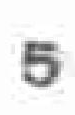5
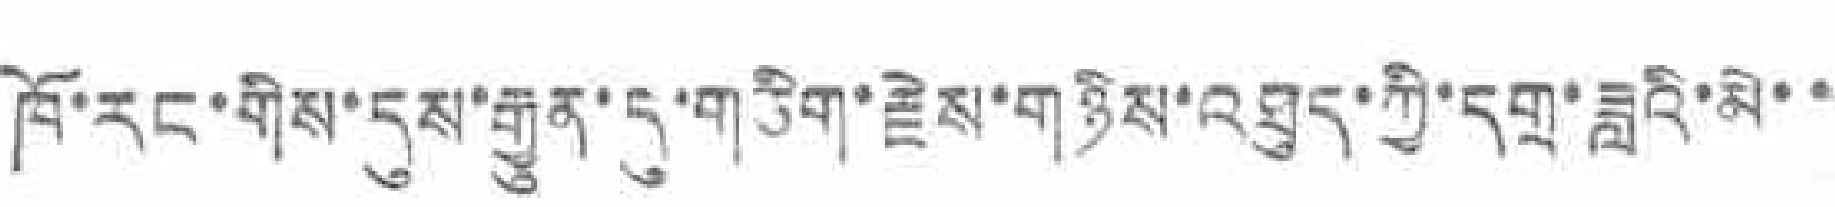ཁོ་རང་གིས་དུས་རྒྱུན་དུ་གཅིག་རྗེས་གཉིས་འཐུད་ཀྱི་དགྲ་ཟླའི་མེ་་
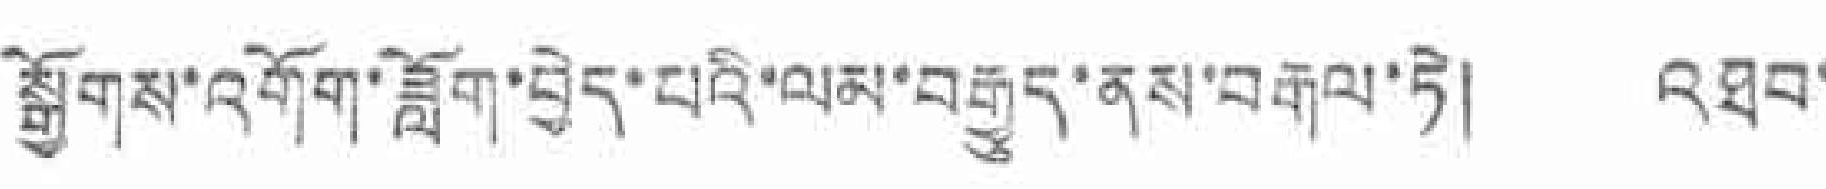སྒྱོགས་འགོག་ཟློག་བྱེད་པའི་ལམ་བརྒྱུད་ནས་བརྒལ་ཏེ། འཐབ་
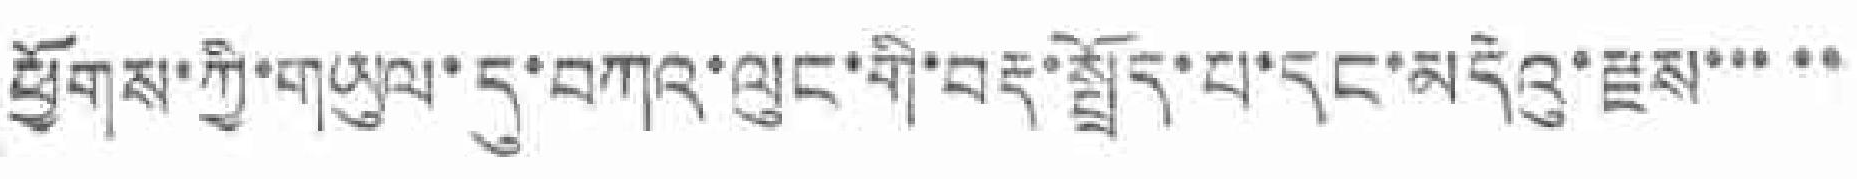ཕྱོགས་ཀྱི་གཡུལ་དུ་བཀའ་ལུང་གི་བརྡ་སྤྱོད་པ་དང་མདེའུ་རྫས་་་་་
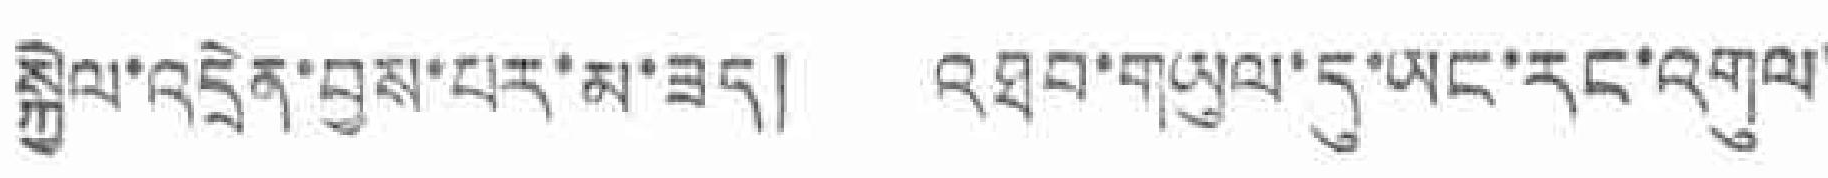སྐྱེལ་འདྲེན་བྱས་པར་མ་ཟད། འཐབ་གཡུལ་དུ་ཡང་རང་འགུལ་
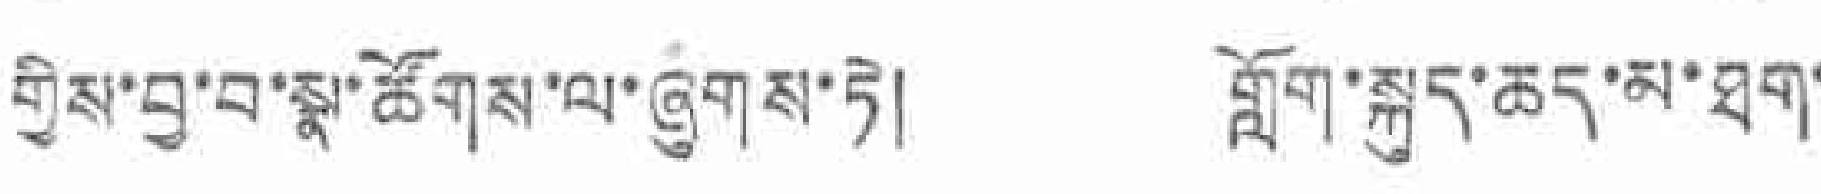གྱིས་བྱ་བ་སྣ་ཚོགས་ལ་ཞུགས་ཏེ། གློག་སྐྱད་ཆད་མ་ཐག་
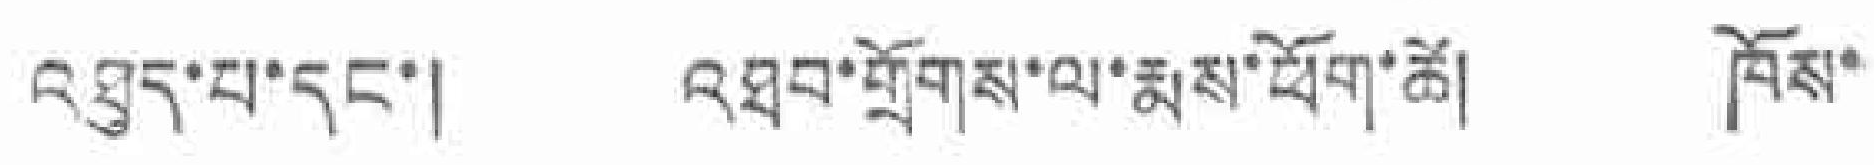འཐུད་པ་དང་། འཐབ་གྲོགས་ལ་རྨས་ཕོག་ཚེ། ཁོས་
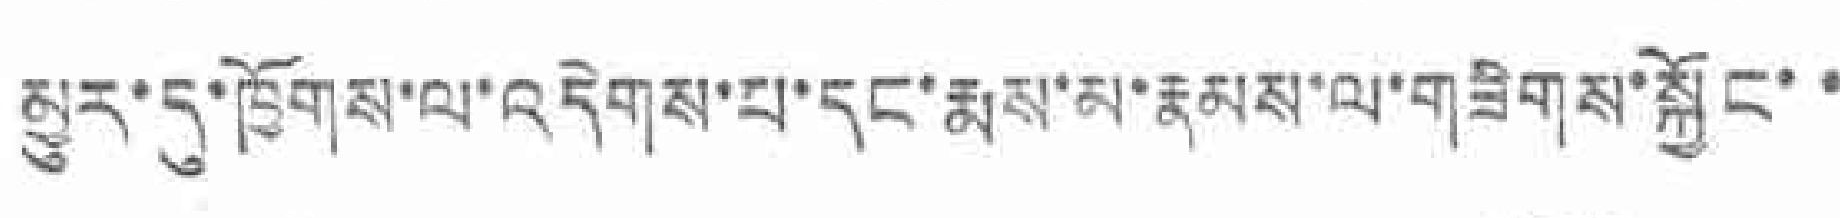མྱུར་དུ་ཁྱོགས་ལ་འདེགས་པ་དང་རྨས་མ་རྣམས་ལ་གཟིགས་སྐྱོང་་
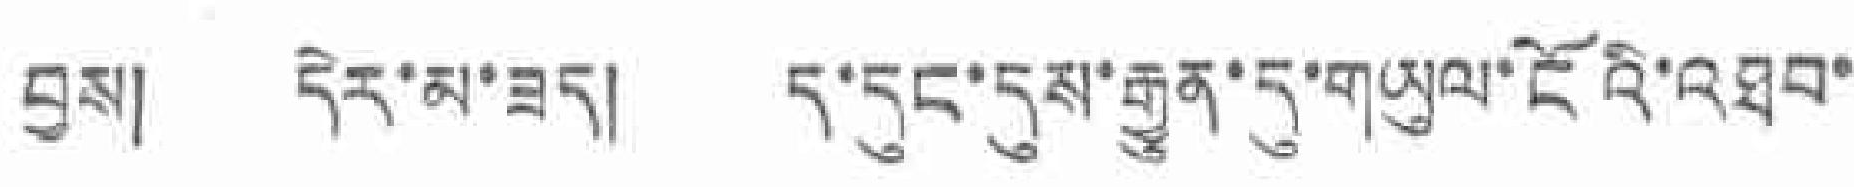བྱས། དེར་མ་ཟད། ད་དུང་དུས་རྒྱུན་དུ་གཡུལ་ངོའི་འཐབ་
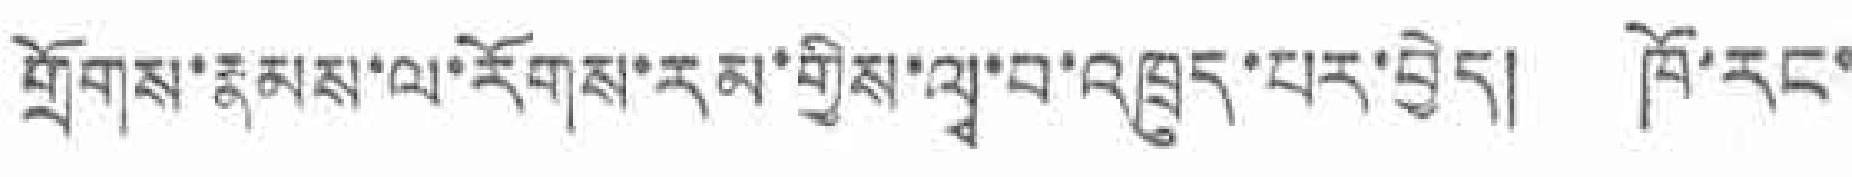གྲོགས་རྣམས་ལ་རོགས་རམ་གྱིས་ལྭ་བ་འཁྲུད་པར་བྱེད། ཁོ་རང་
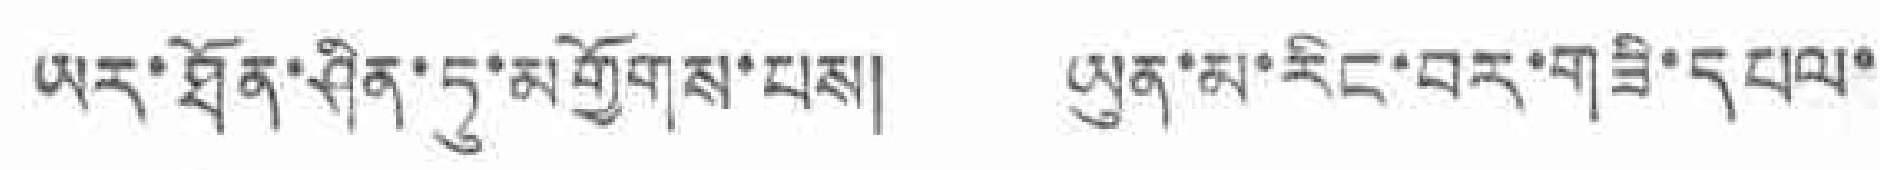ཡད་ཐོན་ཤིན་ཏུ་མགྱོགས་པས། ཡུན་མ་རིང་བར་གཟི་དཔལ་
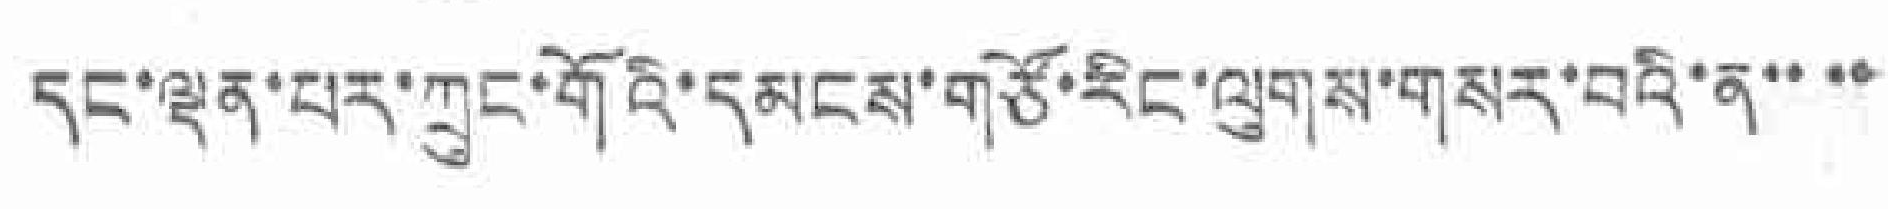དང་ལྡན་པར་ཀྲུང་གོའི་དམངས་གཙོ་རིང་ལུགས་གསར་བའི་ན་་་་
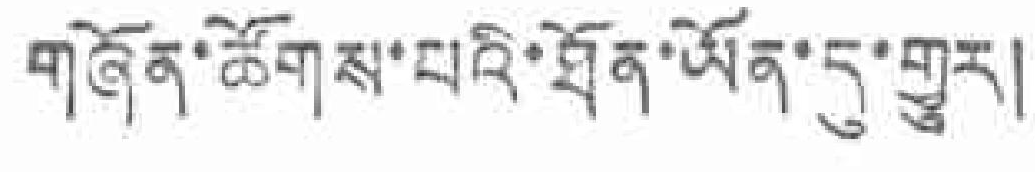གཞོན་ཚོགས་པའི་ཐོན་ཡོན་དུ་གྱུར།
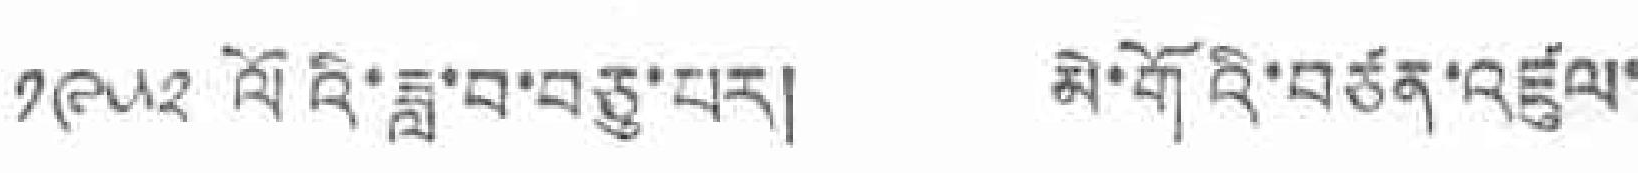༡༩༥༢ ལོའི་ཟླ་བ་བཅུ་པར། མེ་གོའི་བཙན་འཛུལ་
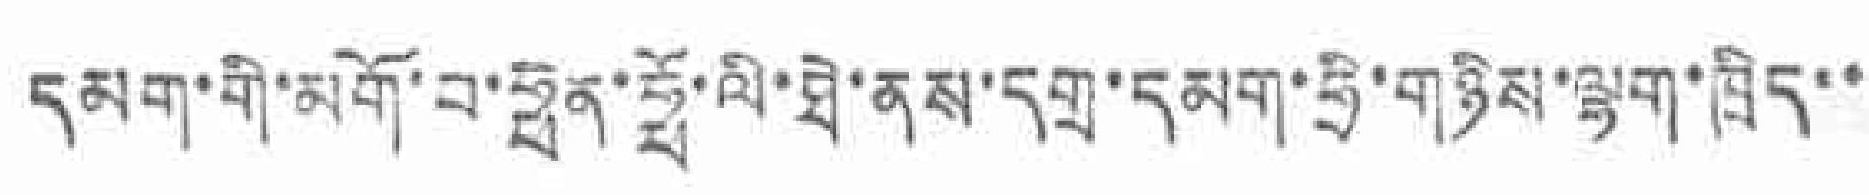དམག་གི་མགོ་བ་ཧྥན་ཧྥོ་ལི་ཐེ་ནས་དགྲ་དམག་ཧྲི་གཉིས་ལྷག་ཁྲིད་་
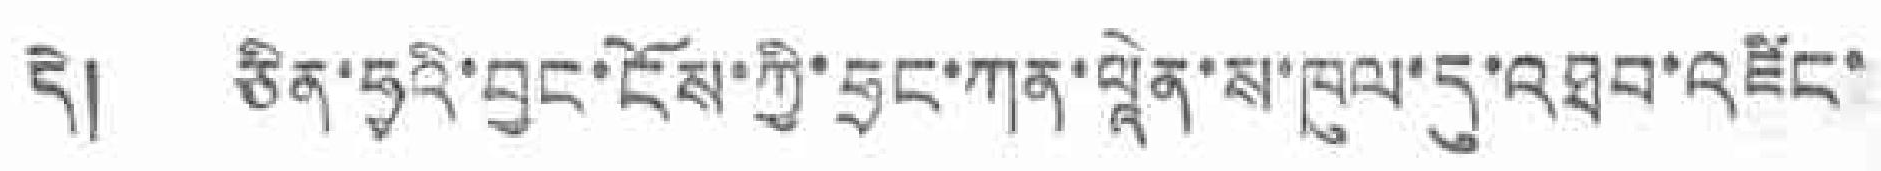དེ། ཅིན་ཧྭའི་བྱང་ངོས་ཀྱི་ཧྲང་ཀན་ལཱེན་ས་ཁུལ་དུ་འཐབ་འཛིང་
